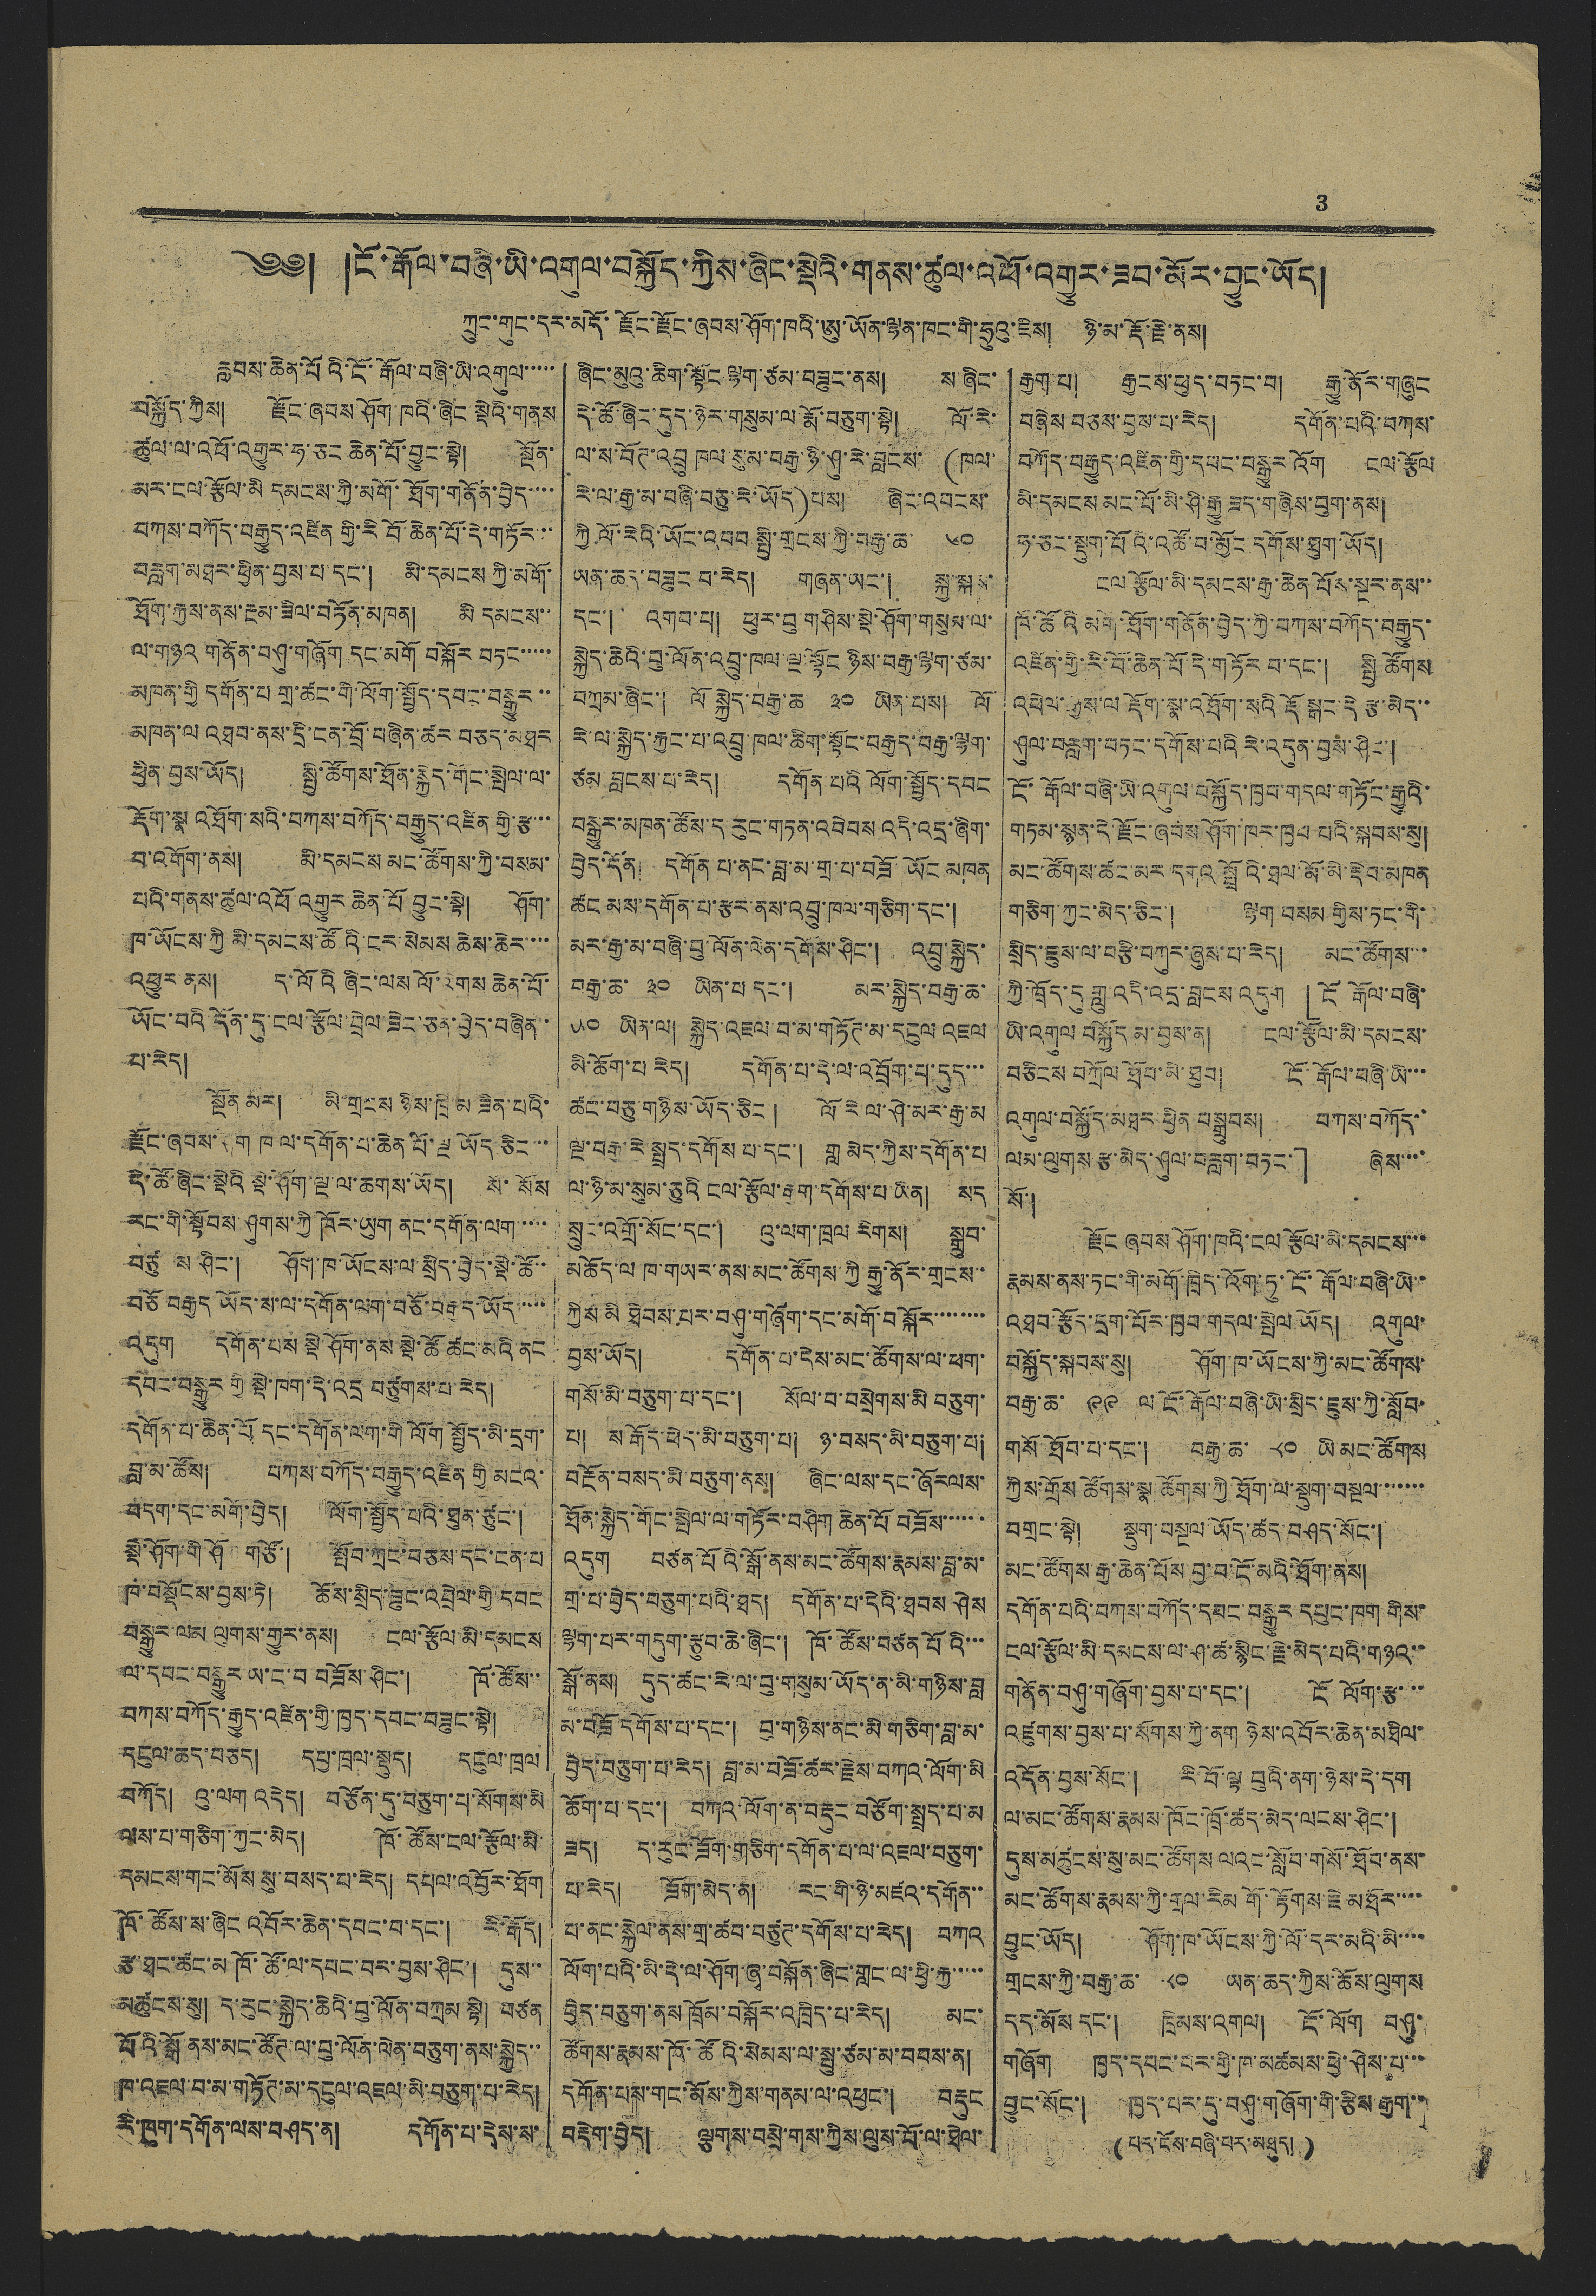3
༄༅། །ངོ་རྒོལ་བཞི་ཡི་འགུལ་བསྐྱོད་ཀྱིས་ཞིང་སྡེའི་གནས་ཚུལ་འཕོ་འགྱུར་ཟབ་མོར་བྱུང་ཡོད།
ཀྲུང་གུང་དར་མདོ་རྫོང་རྫོང་ཞབས་ཤོག་ཁའི་ཨུ་ཡོན་ལྷན་ཁང་གི་ཧྲུའུ་ཇིས། མི་མ་རྡོ་རྗེ་ནས།
རླབས་ཆེན་པོའི་ངོ་རྒོལ་བཞི་ཡི་འགུལ་་་་་
བསྐྱོད་ཀྱི། རྫོང་ཞབས་ཤོག་ཁའི་ཞིང་སྡེའི་གནས
ཚུལ་ལ་འཕོ་འགྱུར་ཧ་ཅང ཆེན་པོ་བྱུང་སྟེ། སྔོན་
མར་ངལ་རྩོལ་མི དམངས་ཀྱི་མགོ་ཐོག་གནོན་བྱེད་་་་
བཀས་བཀོད་བརྒྱུད་འཛིན་གྱི་རི བོ་ཆེན་པོ་དེ་གཏོར་་
བརླག་མཐར་ཕྱིན་བྱས་པ་དང་། མི་དམངས ཀྱི་མགོ་
ཐོག་རྐྱས་ནས་རྔམ་ཟིལ་བཏོན་མཁན། མི དམངས་་
ལ་གཉའ གནོན་བཤུ་གཞོག དང་མགོ བསྐོར བཏང་་་་་
མཁན་གྱི དགོན་པ གྲ་ཚང་གི་འོག་སྤྱོད་དབང་བསྒྱུར་་
མཁན་ལ འཐབ་ནས་དྲི་ངན་བྲོ་བཞིན་ཚར་བཅད་མཐར
ཕྱིན་བྱས་ཡོད། སྤྱི་ཚོགས་ཐོན་སྐྱེད་གོང་སྤེལ་ལ་
རྡོག་སྣ འཐོག་སའི་བཀས་བཀོད་བརྒྱུད་འཛིན གྱི་རྩ་་་
བ་འགོག་ནས། མི་དམངས་མང་ཚོགས་ཀྱི་བསམ་
པའི་གནས་ཚུལ་འཕོ་འགྱུར ཆེན་པོ་བྱུང་སྟེ། ཤོག་
ཁ་ཡོངས་ཀྱི མི་དམངས་ཚོའི་ངར་སེམས ཆེས་ཆེར་་་་
འཕྱུར་ནས། ད་ལོའི ཞིང་ལས ལོ་འགས ཆེན་པོ་
ཡོང་བའི་དོན་དུ་ངལ་རྩོལ་བྲེལ་ཟེང་ཅན་བྱེད་བཞིན་་
པ་རེད།
སྔོན་མར། མི་གྲངས ཉིས་ཁྲི་མ ཟིན་པའི་
རྫོང་ཞབས་ཤག ཁ ལ་དགོན་པ་ཆེན་པོ་ལྔ ཡོད ཅིང་་་
དེ་ཚོ་ཞིང་སྡེའི སྡེ་ཤོག་ལྔ་ལ་ཆགས་ཡོད། སོ་སོས
རང་གི་སྟོབས་ཤུགས་ཀྱི ཁོར་ཡུག ནང་དགོན་ལག་་་་
བཙུ ས ཤིང་། ཤོག་ཁ་ཡོངས་ལ་སྲིད་བྱེད་སྡེ་ཚོ་་
བཅོ བརྒྱད ཡོད་ས་་ས་ལ་དགོན་ལག་བཅོ་བརྒྱད་ཡོད་་་་
འདུག དགོན་པས སྡེ ཤོག་ནས་སྡེ་ཚོ ཚང་མའི་ནང
དབང་བསྒྱུར གྱི སྡེ་ཁག་དེ་འདྲ བཙུགས་པ་རེད།
དགོན་པ་ཆེན་པོ དང་དགོན་ལག་གི ལོག སྤྱོད་མི་དྲག་
བླ་མ་ཚོས། བཀས་བཀོད་བརྒྱུད་འཛིན གྱི མངའ་
བདག་དང་མགོ་བྱེད། ལོག་སྤྱོད་པའི་ཐུན་ཙུང་།
སྡེ་ཤོག་གི་ཤོག་གཙོ་། སྤོབ་ཀྲང་བཅས་དང་ངན་པ
ཁ་བསྡོངས་བྱས་ཏེ། ཆོས་སྲིད་ཟུང་འབྲེལ་གྱི དབང
བསྒྱུར་ལམ ལུགས་གྱུར་ནས། ངལ་རྩོལ་མི་དམངས
ལ་དཔང་བསྒྱུར་ཡ་ང་བ་བཟོས་ཤིང་། ཁོ་ཚོས་་
བཀས་བཀོད་རྒྱུད་འཛིན་གྱི་ཁྱད་དབང་བཟུང་སྟེ།
དངུལ་ཆད་བཅད། དཔྱ་ཁྲལ་སྡུད། དངུལ་ཁྲུལ
བཀོད། འུ་ལག འདེད། བཙོན་དུ་བཅུག་པ་སོགས་མི
ལས་པ་གཅིག་ཀྱང་མེད། ཁོ་ཚོས་ངལ་རྩོལ་མི་
དམངས་གང་མོས་སུ་བསད་པ་རེད། དཔལ་འབྱོར་ཐོག
ཁོ་ཚོས་ས་ཞིང འབོར་ཆེན་དབང་བ་དང་། རི་རྒོད།
རྩ་ཐང་ཚང་མཁོ་ཚོ་ལ་དབང་བར་བྱས་ཤིང་། དུས་་
མཚུངས་སུ། ད་རུང་སྐྱེད་ཆེའི་བུ་ལོན་བཀྲམ སྟེ། བཙན
པོའི་སྒོ་ནས་མང་ཚོཊ་ལ་བུ་ལོན་ལེན་བཅུག་ནས་སྐྱེད་་
ཁ་འཇལ་བ་མ་གཏོཊ་མ་དངུལ་འཇལ་མི་བཅུག་པ་རེད།
རི་ཁུག་དགོན་ལས་བཤད་ན། དགོན་པ་དེས་ས་
ཞིང་མུའུ་ཆིག་སྟོང ལྷག་ཙམ་བཟུང་ནས། ས་ཞིང་
དེ་ཚོ་ཞིང་དུད་ཉེར་གསུམ་ལ་རྨོ་བཅུག་སྟེ། ལོ་རེ་
ལ་ས་བོཊ་འབྲུ ཁལ་སུམ་བརྒྱ་ཉི་ཤུ་རེ་བླངས་ (ཁལ་
རེ་ལ་རྒྱ་མ་བཞི་བཅུ་རེ་ཡོད)པས། ཞིང་འབངས་
ཀྱི ལོ་རེའི་ཡོང་འབབ སྤྱི་གྲངས་ཀྱི་བརྒྱ་ཆ་ ༦༠
ཡན་ཆད་བཟུང བ་རེད། གཞན་ཡང་། སྐྱ་སྐས་
དང་། འགབ་པ། ཕུར་བུ་གཤིས་སྡེ་ཤོག་གསུམ་ལ་
སྐྱེད་ཆེའི་བུ་ལོན་འབྲུ་ཁལ་ལྔ་སྟོང ཉིས་བརྒྱ་ལྷག་ཙམ་
བཀྲམ་ཞིང་། ལོ སྐྱེད་བརྒྱ་ཆ ༣༠ ཡིན་པས། ལོ
རེ་ལ་སྐྱེད་རྐྱང་པ་འབྲུ་ཁལ་ཆིག་སྟོང་བརྒྱད་བརྒྱ་ལྷག་
ཙམ བླངས་པ་རེད། དགོན་པའི ལོག་སྤྱོད་དབང
བསྒྱུར་མཁན་ཚོས་ད རུང་གཏན་འབེབས འདི་འདྲ་ཞིག་
བྱེད་དོན། དགོན པ་ནང་བླ་མ་གྲ་པ་བཟོ་ཡོང མཁན
ཚང མས་དགོན་པ་རྩར་ནས་འབྲུ་ཁལ་གཅིག་དང་།
མར་རྒྱ་མ་བཞི་བུ་ལོན་ལེན་དགོས་ཤིང་། འབྲུ་སྐྱེད་
བརྒྱ་ཆ་ ༣༠ ཡིན་པ་དང་། མར་སྐྱེད་བརྒྱ་ཆ་
༥༠ ཡིན་ལ། སྐྱེད་འཇལ་བ་མ་གཏོཊ་མ་དངུལ་འཇལ
མི་ཆོག་པ་རེད། དགོན་པ་དེ་ལ་འབྲོག་པ་དུད་་་
ཚང་བཅུ་གཉིས་ཡོད་ཅིང་། ལོ རེ་ལ་ཤེ་མར་རྒྱ་མ
ལྔ་བརྒྱ་རེ་སྤྲད་དགོས པ་དང་། གླ མེད་ཀྱིས་དགོན་པ
ལ་ཉི་མ་སུམ་ཅུའི ངལ་རྩོལ་རྒྱག་དགོས་པ་ཡིན། སད
སྲུང་འགྲོ་སོང་དང་། འུ་ལག་ཁྲལ རིགས། སྒྲུབ་
མཆོད་ལ ཁ་གཡར་ནས་མང་ཚོགས་ཀྱི རྒྱུ་ནོར་གྲངས་་
ཀྱིས་མི ཐེབས་པར་བཤུ་གཞོག་དང་མགོ་བསྐོར་་་་་་་་
བྱས་ཡོད། དགོན་པ་དེས་མང་ཚོགས་ལ་ཕག་
གསོ་མི་བཅུག་པ་དང་། སོལ་བ་བསྲེགས་མི བཅུག་
པ། ས རྒོད་ཕེད་མི་བཅུག་པ། ཉ་བསད་མི་བཅུག་པ།
བརྔོན་བསད་མི་བཅུག་ནས། ཞིང་ལས་དང་ཞོརལས་
ཐོན་སྐྱེད་གོང་སྤེལ་ལ་གཏོར་བཤིག་ཆེན་པོ་བཟོས་་་་་་
འདུག བཙན་པོའི་སྒོ་ནས་མང་ཚོགས་རྣམས་བླ་མ་
གྲ་པ་བྱེད་བཅུག་པའི་ཐད། དགོན་པ་དེའི་ཐབས་ཤེས
ལྷག་པར་གདུག་རྩུབ་ཆེ་ཞིང་། ཁོ་ཚོས་བཙན་པོའི་་་
སྒོ་ནས། དུད་ཚང་རེ་ལ་བུ་གསུམ་ཡོད་ན་མི་གཉིས་བླ
མ་བཟོ་དགོས་པ་དང་། བུ་གཉིས་ནང་མི་གཅིག་བླ་མ་
བྱེད་བཅུག་པ་རེད། བླ་མ་བཟོ་ཚར་རྗེས་བཀའ་ལོག་མི
ཆོག་པ་དང་། བཀའ་ལོག་ན་བརྡུང བཙོག་སྤྲད་པ་མ
ཟད། ད་རུང་ཟོག་གཅིག་དགོན་པ་ལ་འཇལ་བཅུག་
པ་རེད། ཟོག་མེད་ན། རང་གི་ཉེ་མཛའ་དགོན་་
པ་ནང་སྐྱེལ་ནས་གྲ་ཚབ་བཙུཊ་དགོས་པ་རེད། བཀའ
ལོག་པའི་མི་དེ་ལ་ཤོག་ཞྭ་བསྐོན་ཞིང་གླང་ལ་ཕྱི་རྐྱ་་་་་
བྱེད་བཅུག་ནས་ཁྲོམ་བསྐོར་འཁྲིད་པ་རེད། མང་
ཚོགས་རྣམས་ཁོ་ཚོའི་སེམས་ལ་སྤུ་ཙམ་མ་བབས་ན།
དགོན་པས་གང་མོས་ཀྱིས་གནམ་ལ་འཕྱང་། བརྡུང
བརྡེག་བྱེད། ལྕགས་བསྲེ་གས་ཀྱིས་ལུས་པོ་ལ་ཐེལ་
རྒྱག་པ། རྒྱངས་ཕུད་བཏང་བ། རྒྱུ་ནོར་གཞུང
བཞེས་བཅས་བྱས་པ་རེད། དགོན་པའི་བཀས་
བཀོད་བརྒྱུད་འཛིན་གྱི་དཔང་བསྒྱུར་འོག ངལ་རྩོལ
མི་དམངས མང་པོ་མི་ཤི་རྒྱུ ཟད་གཞིས་བུག་ནས།
ཧ་ཅང་སྡུག་པོའི་འཚོ་བ་མྱོང དགོས་ཐུག་ཡོད།
ངལ་རྩོལ་མི་དམངས་རྒྱ་ཆེན པོས་སྔར་ནས་་
ཁོ་ཚོའི་མགོ་ཐོག་གནོན་བྱེད་ཀྱི་བཀས་བཀོད་བརྒྱུད་
འཛིན་གྱི་རི་བོ་ཆེན་པོ་དེ་གཏོར་བ་དང་། སྤྱི ཚོགས
འཕེལ་རྒྱས་ལ རྡོག་སྣ་འཐོག་སའི་རྡོ སྒང་དེ རྩ་མེད་་
ཤུལ་བརླག་བཏང་དགོས་པའི རེ་འདུན་བྱས་ཤིང་།
ངོ་རྒོལ་བཞི་ཡི་འགུལ་བསྐྱོད་ཁྱབ་གདལ་གཏོང་རྒྱུའི་
གཏམ་སྙན་དེ་རྫོང་ཞབས ཤོག་ཁང་ཁྱབ་པའི་སྐབས་སུ།
མང་ཚོགས་ཚང་མར་དགའ སྤྲོའི་ཐལ་མོ་མི་རྡེབ་མཁན
གཅིག་ཀྱང་མེད་ཅིང་། ལྷག་བསམ གྱིས་ཏང་གི་
སྲིད་ཇུས་ལ་བརྩི་བཀུར་ཞུས་པ་རེད། མང་ཚོགས་་་
ཀྱི་ཁྲོད་དུ གླུ་འདི་འདྲ་བླངས་འདུག 「ངོ རྒོལ་བཞི་
ཡི་འགུལ བསྐྱོད མ་བྱས་ན། ངལ་རྩོལ་མི་དམངས་
བཅིངས བཀྲོལ ཐོབ་མི་ཐུབ། ངོ་རྒོལ་བཞི་ཡི་་་
འགུལ་བསྐྱོད་མཐར་ཕྱིན བསྒྲུབས། བཀས་བཀོད་་
ལམ་ལུགས་རྩ་མེད་ཤུལ་བརླག་བཏང་」 ཞེས་་་་
སོ་།
རྫོང ཞབས ཤོག་ཁའི་ངལ་རྩོལ་མི་དམངས་་་
རྣམས་ནས་ཏང་གི་མགོ་ཁྲིད་འོག་ཏུ་ངོ་རྒོལ་བཞི་ཡི་་
འཐབ་རྩོད་དྲག་པོར་ཁྱབ་གདལ་སྤེལ ཡོད། འགུལ་
བསྐྱོད་སྐབས་སུ། ཤོག་ཁ་ཡོངས་གྱི་མང་ཚོགས་
བརྒྱ་ཆ་ ༩༩ ལ་ངོ་རྒོལ་བཞི་ཡི་སྲིང་ཇུས་ཀྱི་སློབ་
གསོ་ཐོབ་པ་དང་། བརྒྱ་ཆ་ ༨༠ ཡི་མང་ཚོགས
ཀྱིས་གྲོས་ཚོགས་སྣ ཚོགས་ཀྱི་ཐོག་ལ་སྡུག་བསྔལ་་་་་་་
བགྲང་སྟེ། སྡུག་བསྔལ་ཡོད་ཚད་བཤད་སོང་།
མང་ཚོགས་རྒྱ་ཆེན་པོས་བྱས་བ་ངོ་མའི་ཐོག་ནས།
དགོན་པའི་བཀས་བཀོད་དབང་བསྒྱུར་དཔུང་ཁག་གིས་
ངལ་རྩོལ་མི་དམངས་ལ་ཤ་ཚ་སྙིང་རྗེ་མེད་པའི་གཉའ་་
གནོན་བཤུ་གཞོག་བྱས་པ་དང་། ངོ ལོག་རྩ་་་
འཛུགས་བྱས་པ་སོགས་ཀྱི་ནག ཉེས་འབོར་ཆེན་མཐིལ་
འདོན་བྱས་སོང་། རི་བོ་ལྟ བུའི་ནག་ཉེས་དེ་དག
ལ་མང་ཚོགས་རྣམས་ཁོང་ཁྲོ་ཚད་མེད་ལངས་ཤིང་།
དུས་མཚུངས་སུ་མང་ཚོགས་ལའང་སློབ་གསོ་ཐོབ་ནས་
མང་ཚོགས་རྣམས་ཀྱི་གྲལ་རིམ་གོ་རྟོགས་ཇེ་མཐོར་་་་
བྱུང་ཡོད། ཤོག་ཁ་ཡོངས་ཀྱི་ལོ་དར་མའི་མི་་་་
གྲངས་ཀྱི་བརྒྱ་ཆ་ ༨༠ ཡན་ཆད་ཀྱིས་ཆོས་ལུགས
དད་མོས་དང་། ཁྲིམས་འགལ། ངོ་ལོག བཤུ་
གཞོག ཁྱད་དཔང་པར་གྱི་ཁ་མཚམས་ཕྱེ་ཤེས་པ་་་
བྱུང་སོང་། ཁྱད་པར་དུ་བཤུ་གཞོག་གི་རྩིས་རྒྱག་་
(པར་ངོས་བཞི་པར་མཐུད།)
